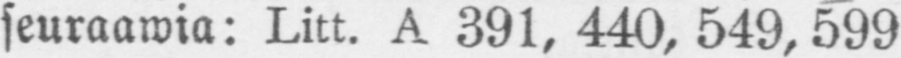seuraawia: Litt. A 391, 440, 549,599
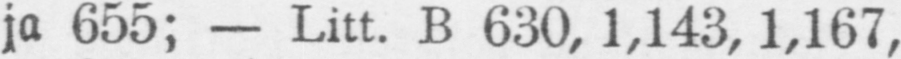ja 655; — Litt. B 630, 1,143, 1,167,
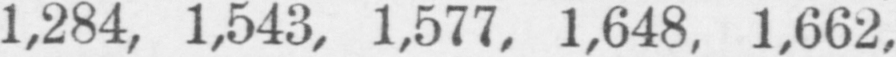1,284, 1,543, 1,577, 1,648, 1,662,
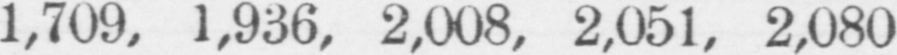1,709, 1,936, 2,008, 2,051, 2,080
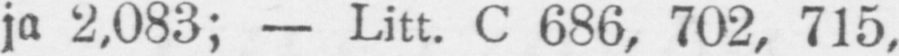ja 2.083; — Litt. C 686, 702, 715,
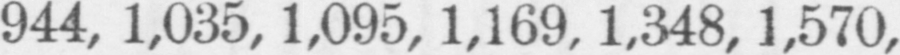944, 1,035, 1,095, 1,169, 1,348, 1,570,
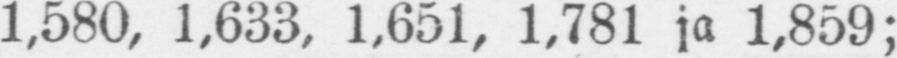1,580, 1,633, 1,651, 1,781 ja 1,859;
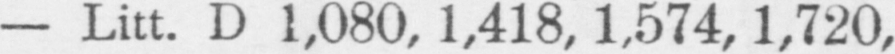— Litt. D 1,080, 1,418, 1,574, 1,720,
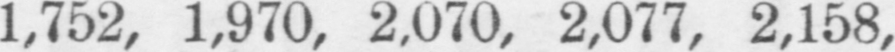1,752, 1,970, 2,070, 2,077, 2,158,
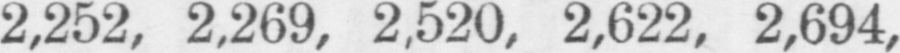2,252, 2,269, 2,520, 2,622, 2,694,
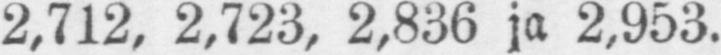2,712, 2,723, 2,836 ja 2,953.
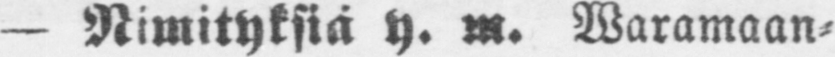— Nimityksiä y. m. Waramaan-
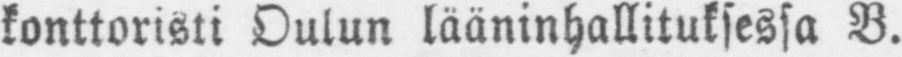konttoristi Oulun lääninhallituksessa B.
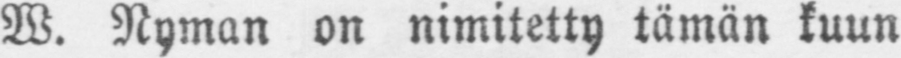W. Nyman on nimitetty tämän kuun
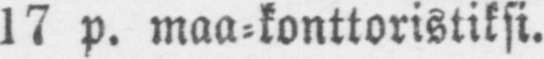17 p. maa-konttoristiksi.
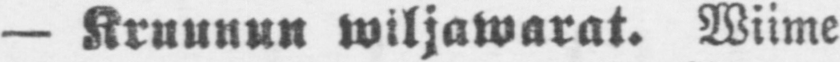— Kruunun wiljawarat. Wiime
